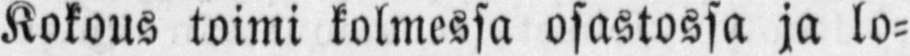Kokous toimi kolmessa osastossa ja lo-
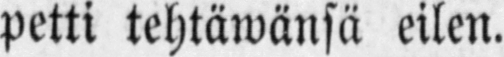petti tehtäwänsä eilen.
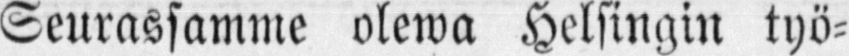Seurassamme olewa Helsingin työ-
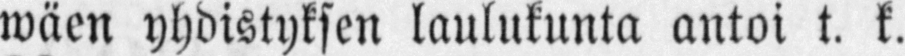wäen yhdistyksen laulukunta antoi t. k.
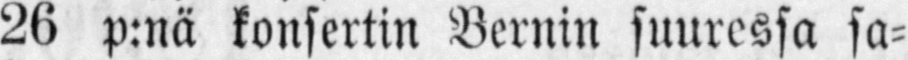26 p:nä konsertin Bernin suuressa sa-
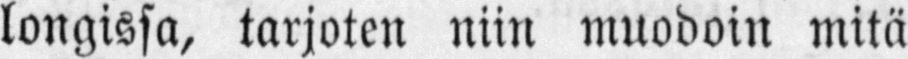longissa, tarjoten niin muodoin mitä
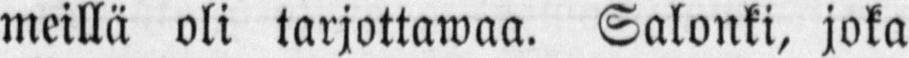meillä oli tarjottawaa. Salonki, joka
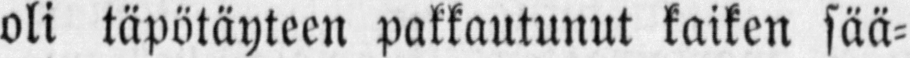oli täpötäyteen pakkautunut kaiken sää-
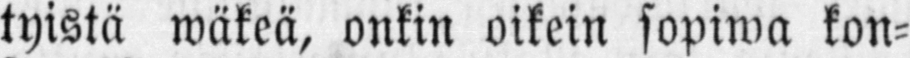tyistä wäkeä, onkin oikein sopiwa kon-
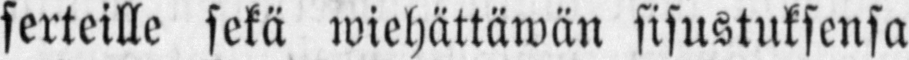serteille sekä wiehättäwän sisustuksensa
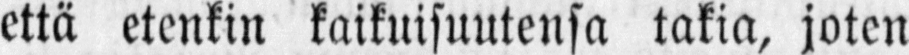että etenkin kaikuisuutensa takia, joten
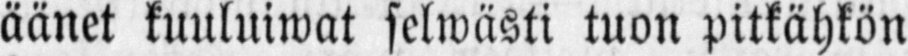äänet kuuluiwat selwästi tuon pitkähkön
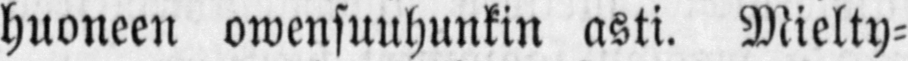huoneen owensuuhunkin asti. Mielty-
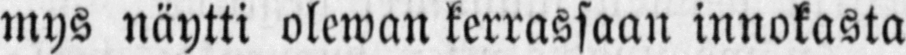mys näytti olewan kerrassaan innokasta
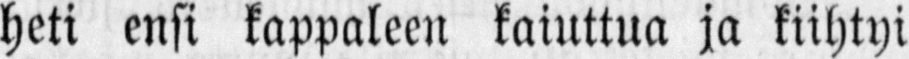heti ensi kappaleen kaiuttua ja kiihtyi
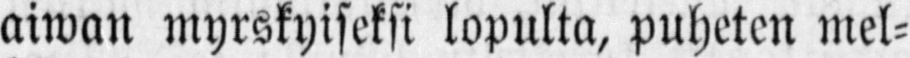aiwan myrskyiseksi lopulta, puheten mel-
